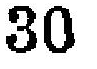30
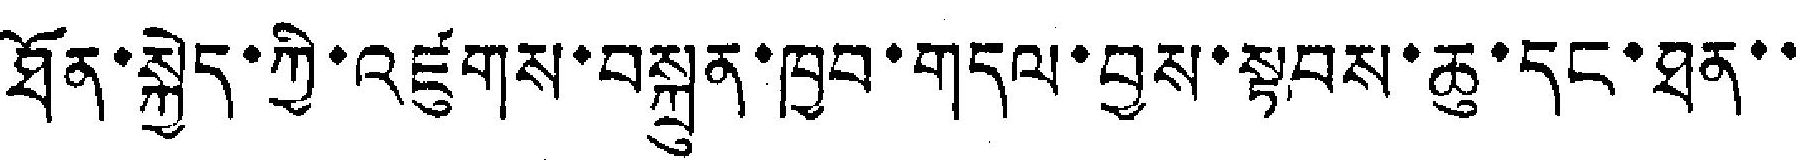ཐོན་སྐྱེད་ཀྱི་འཛུགས་བསྐྲུན་ཁྱབ་གདལ་བྱས་སྟབས་ཆུ་དང་ཐན་་
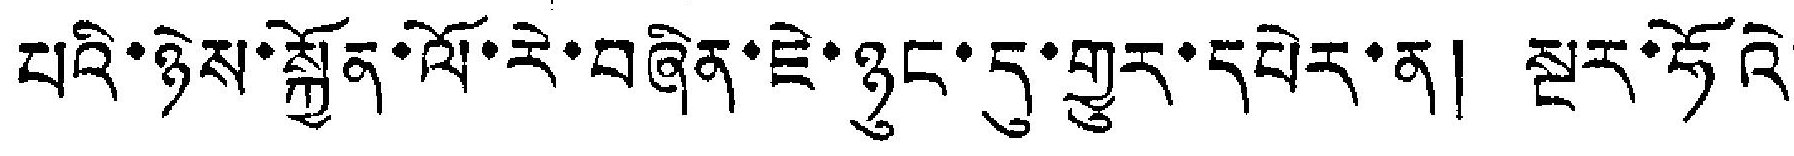པའི་ཉེས་སྐྱོན་ལོ་རེ་བཞིན་ཇེ་ཉུང་དུ་གྱུར་དཔེར་ན། སྔར་ཧོའེ་
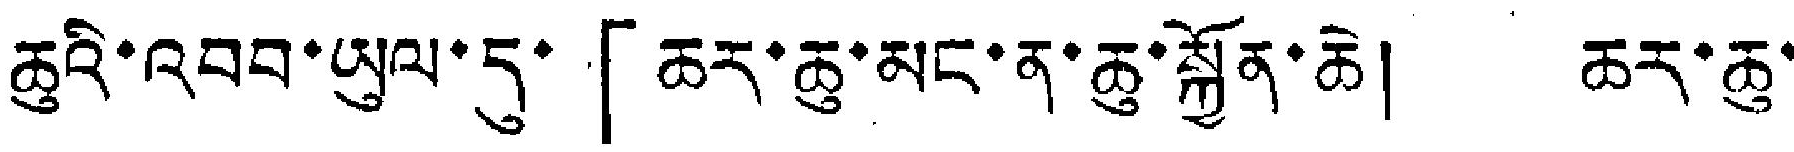ཆུའི་འབབ་ཡུལ་དུ་「ཆར་ཆུ་མང་ན་ཆུ་སྐྱོན་ཆེ། ཆར་ཆུ་
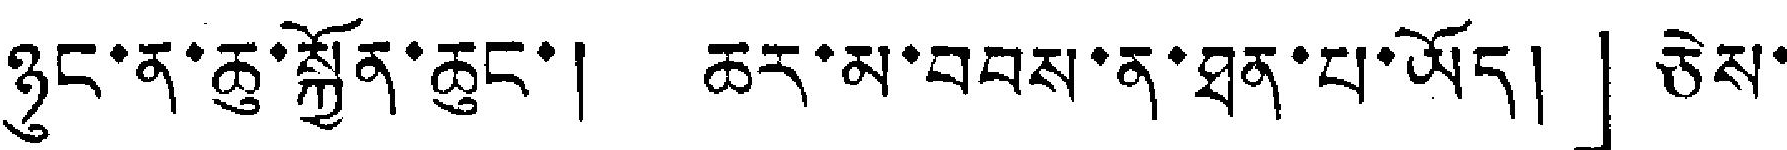ཉུང་ན་ཆུ་སྐྱོན་ཆུང་། ཆར་མ་བབས་ན་ཐན་པ་ཡོད།」ཅེས་
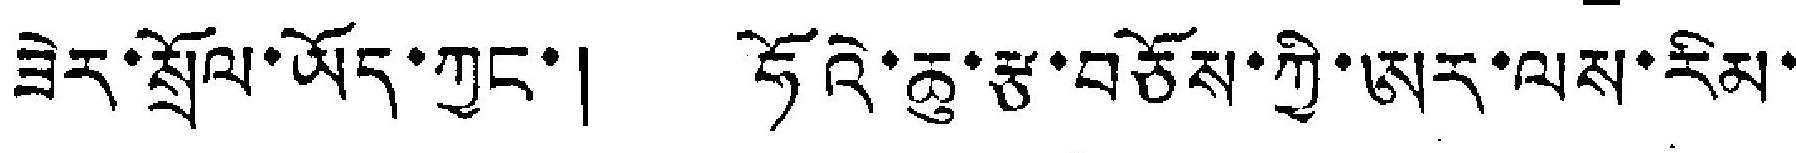ཟེར་སྲོལ་ཡོད་ཀྱང་། ཧོའེ་ཆུ་རྩ་བཅོས་ཀྱི་ཨར་ལས་རིམ་
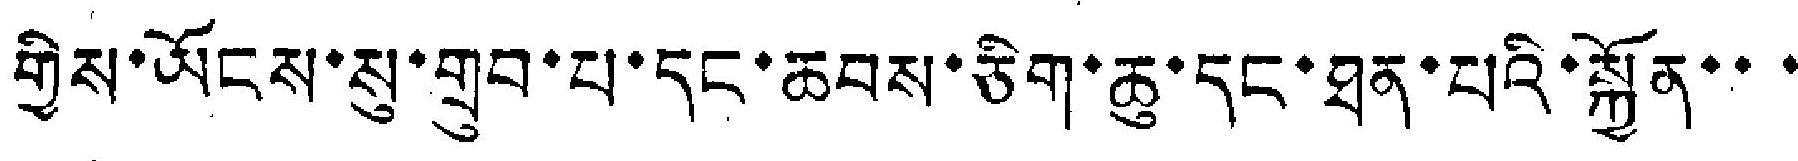གྱིས་ཡོངས་སུ་གྲུབ་པ་དང་ཆབས་ཅིག་ཆུ་དང་ཐན་པའི་སྐྱོན་་་
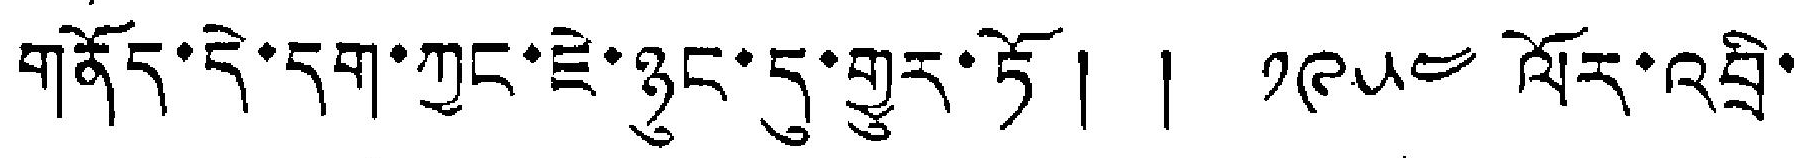གནོད་དེ་དག་ཀྱང་ཇེ་ཉུང་དུ་གྱུར་ཏོ ། ། ༡༩༥༤ ལོར་འབྲི་
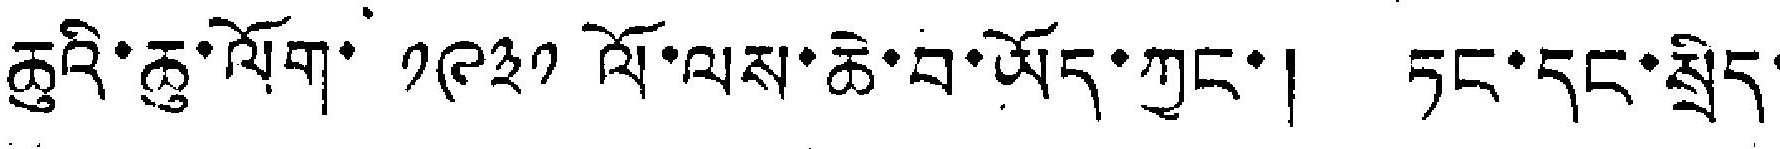ཆུའི་ཆུ་ལོག་ ༡༩༣༡ ལོ་ལས་ཆེ་བ་ཡོད་ཀྱང་། ཏང་དང་སྲིད་
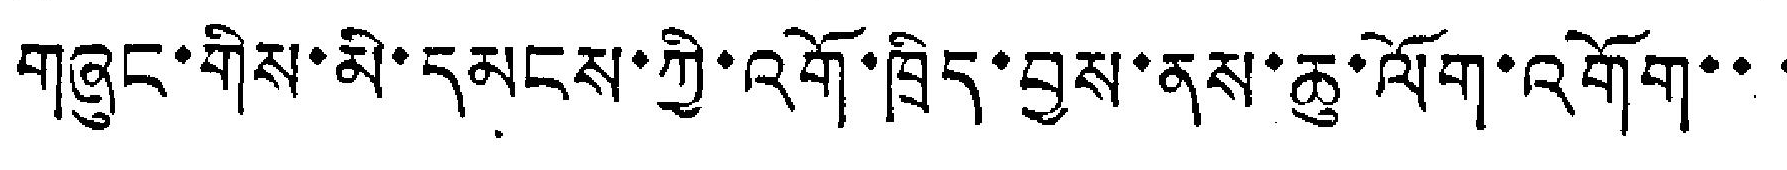གཞུང་གིས་མི་དམངས་ཀྱི་འགོ་ཁྲིད་བྱས་ནས་ཆུ་ལོག་འགོག་་་
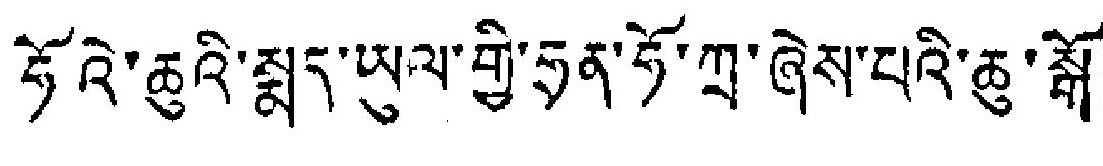ཧོའེ་ཆུའི་སྨད་ཡུལ་གྱི་ཧྲན་ཧོ་ཀྲ་ཞེས་པའི་ཆུ་སྒོ་
